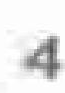4
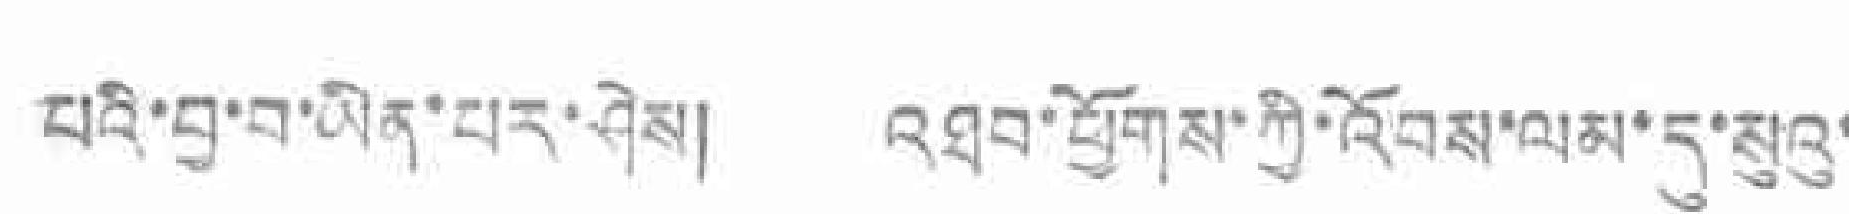པའི་བྱ་བ་ཡིན་པར་ཤེས། འཐབ་ཕྱོགས་ཀྱི་འོབས་ལམ་དུ་སུའུ་
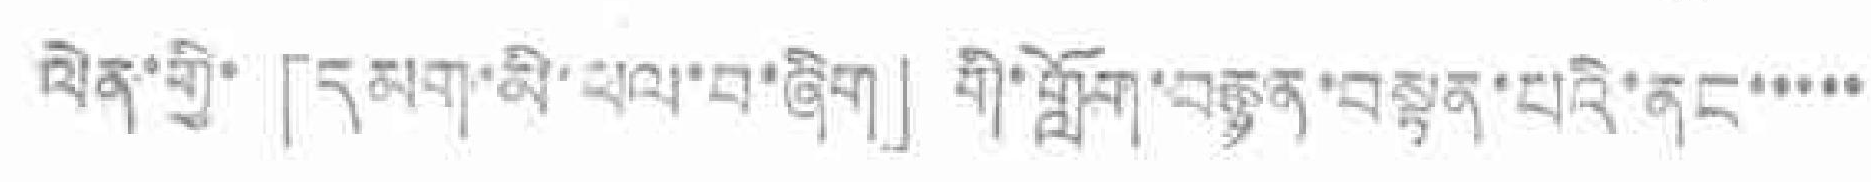ལེན་གྱི་「དམག་མི་ཕལ་བ་ཞིག」 གི་བློག་བརྙན་བསྟན་པའི་ནང་་་་་་
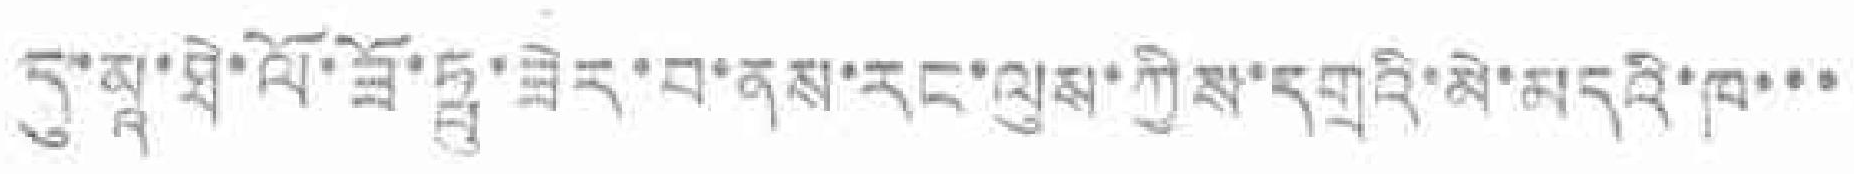དུ་མཱ་ཐེ་ལོ་ཟོ་ཧྥུ་ཟེར་བ་ནས་རང་ལུས་ཀྱིས་དགྲའི་མེ་མདའི་ཁ་་་
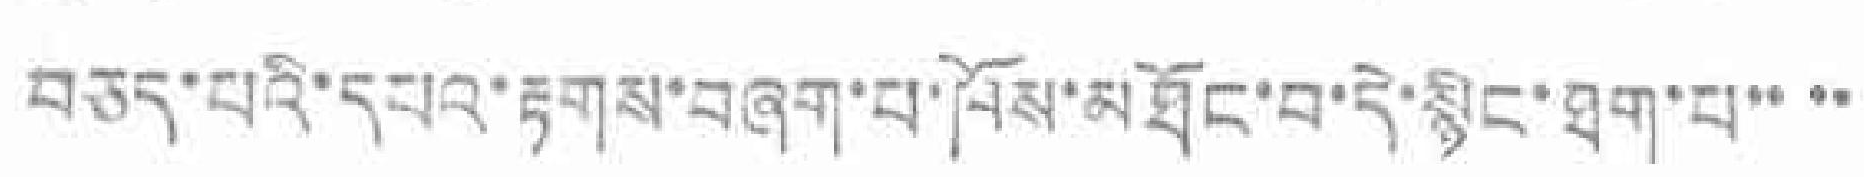བཅད་པའི་དཔའ་རྟགས་བཞག་པ་ཁོས་མཐོང་བ་དེ་སྙིང་ཐག་པ་་་་
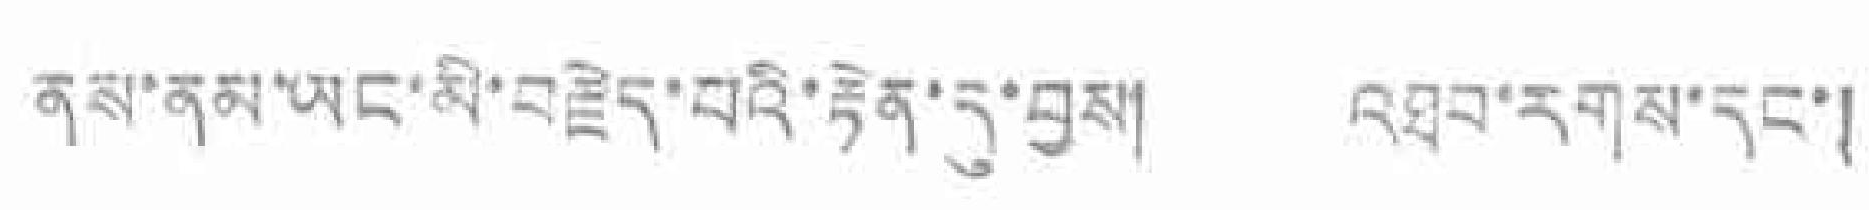ནས་ནམ་ཡང་མི་བརྗེད་བའི་རྟེན་དུ་བྱས། འཐབ་རགས་དང་།
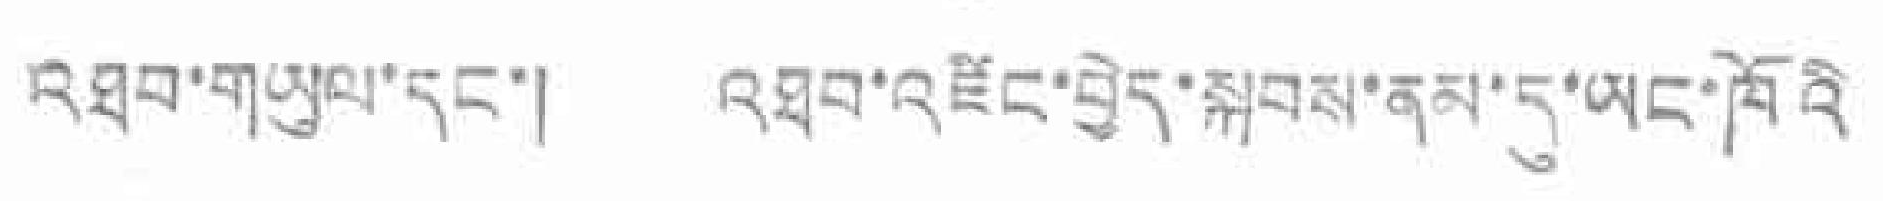འཐབ་གཡུལ་དང་། འཐབ་འཛིང་བྱེད་སྐབས་ནམ་དུ་ཡང་ཁོའི
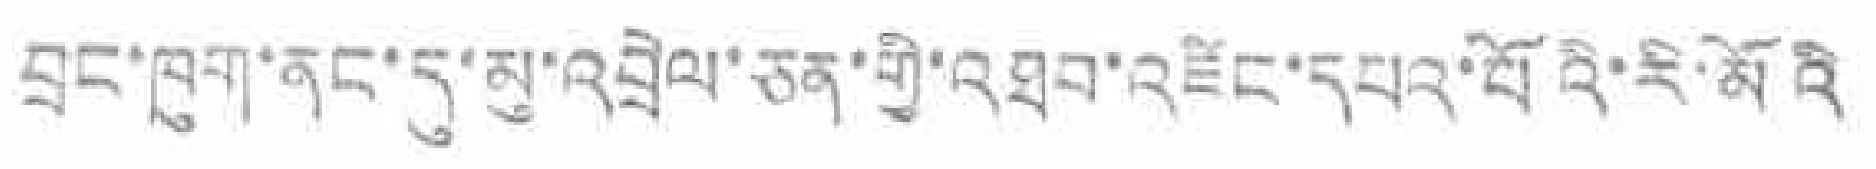བྲང་ཁུག་ནང་དུ་མུ་འབྲེལ་ཅན་གྱི་འཐབ་འཛིང་དཔའ་པོའི་རི་མོའི
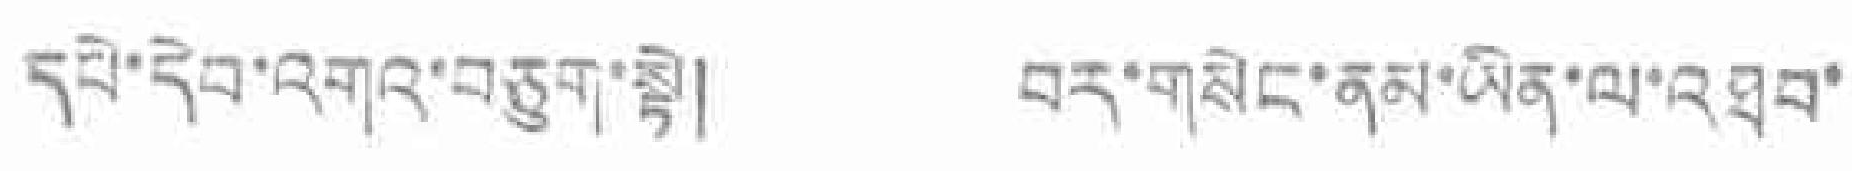དཔེ་དེབ་འགའ་བཅུག་སྟེ། བར་གསེང་ནམ་ཡིན་ལ་འཐབ་
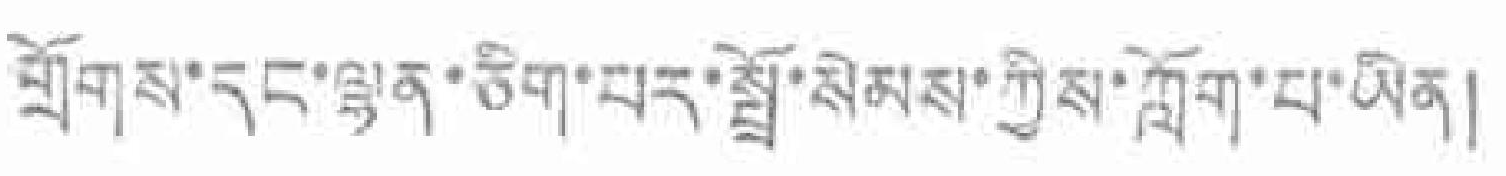གྲོགས་དང་ལྷན་ཅིག་པར་སྤྲོ་སེམས་ཀྱིས་ཀློག་པ་ཡིན།
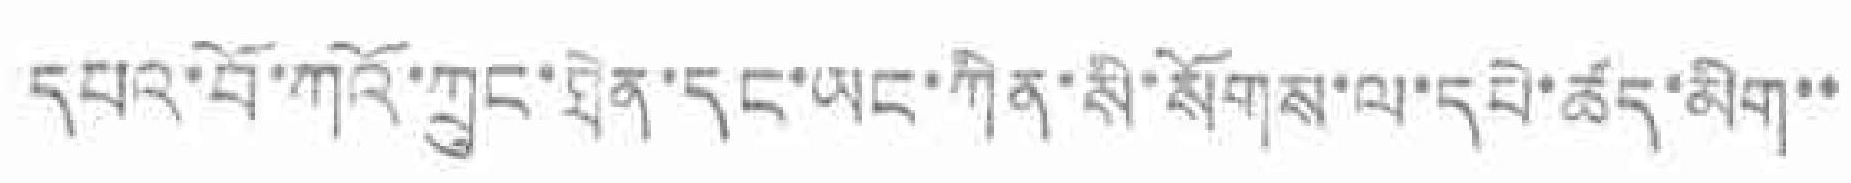དཔའ་བོ་ཀའོ་ཀྲུང་ཐེན་དང་ཡང་ཀིན་སི་སོགས་ལ་དཔེ་ཚོད་མིག་་
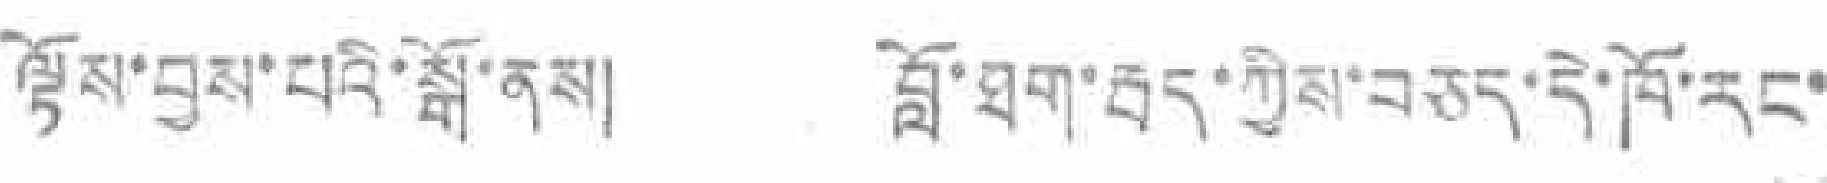ལྟོས་བྱས་པའི་སྒོ་ནས། བློ་ཐག་རྦད་ཀྱིས་བཅད་དེ་ཁོ་རང་
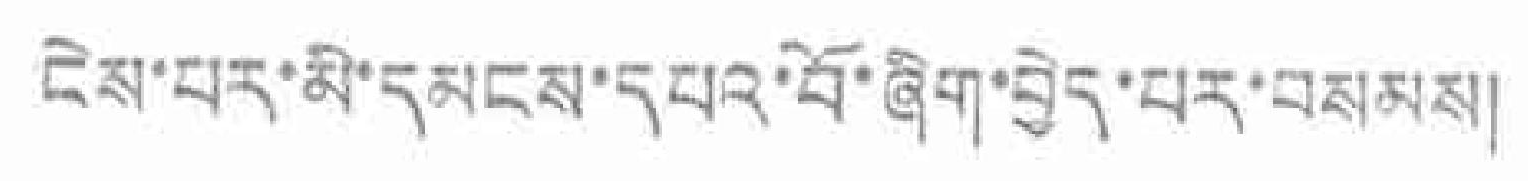ངེས་པར་མི་དམངས་དཔའ་བོ་ཞིག་བྱེད་པར་བསམས།
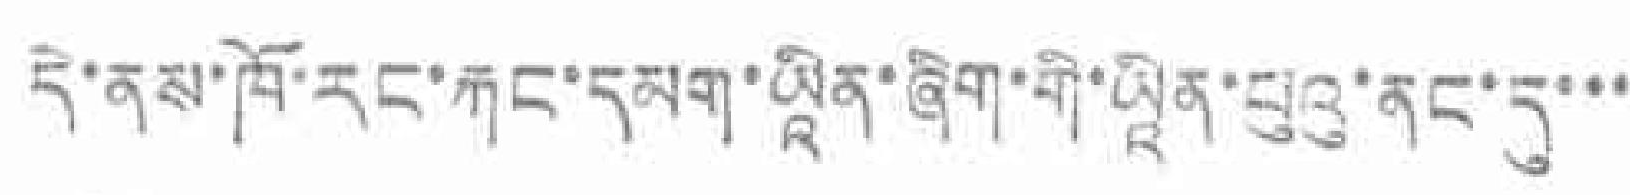དེ་ནས་ཁོ་རང་རྐང་དམག་ཡཱིན་ཞིག་གི་ཡཱིན་པུའུ་ནང་དུ་་་
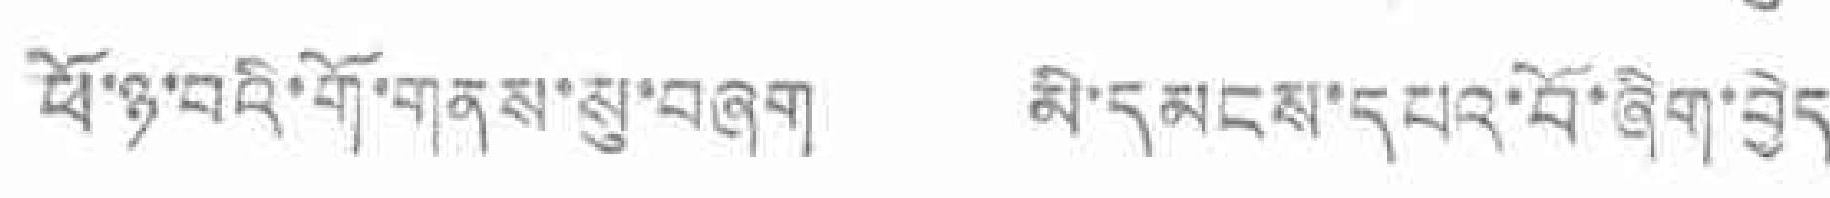ཕོ་ཉ་བའི་གོ་གནས་སུ་བཞག མི་དམངས་དཔའ་བོ་ཞིག་བྱེད་
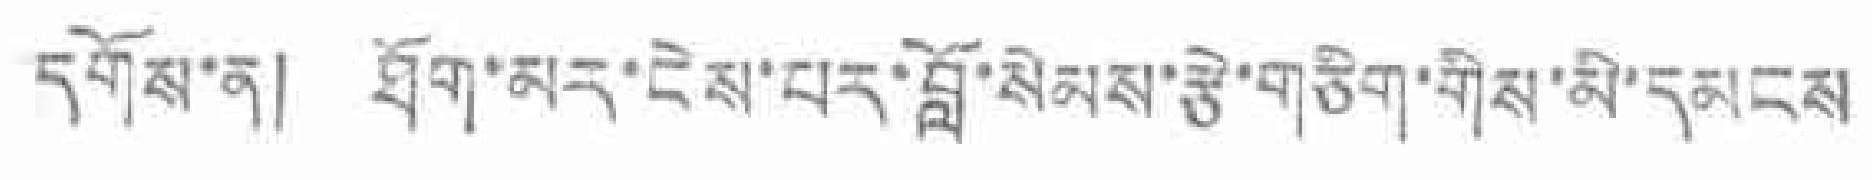དགོས་ན། ཐོག་མར་ངེས་པར་བློ་སེམས་རྩེ་གཅིག་གིས་མི་དམངས
